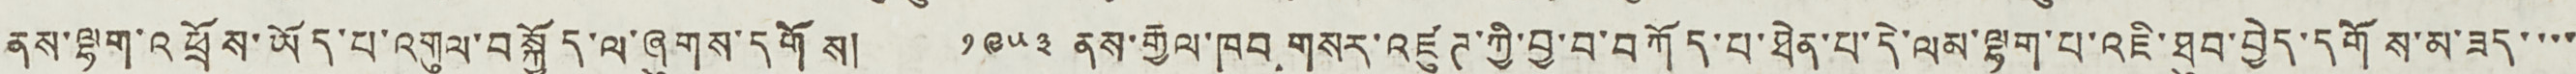ནས་ལྷག་འཕྲོས་ཡོད་པ་འགུལ་བསྐྱོད་ལ་ཞུགས་དགོས། ༡༩༥༣ ནས་རྒྱལ་ཁབ་གསར་འཛུཊ་ཀྱི་བྱ་བ་བཀོད་པ་ཐེན་པ་དེ་ལམ་ལྷག་པ་འཇི་ཐུབ་བྱེད་དགོས་མ་ཟད་་་་
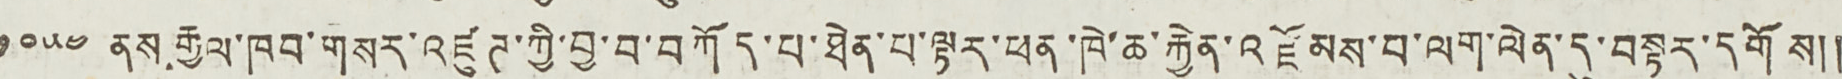༡༩༥༤ ནས རྒྱལ་ཁབ་གསར་འཛུཊ་ཀྱི་བྱ་བ་བཀོད་པ་ཐེན་པ་ལྟར་ཕན་ཁེ་ཆ་རྐྱེན་འཛོམས་བ་ལག་ལེན་དུ་བསྟར་དགོས༎
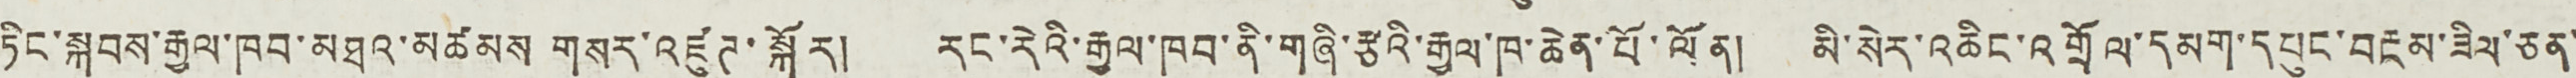ཏིང་སྐབས་རྒྱལ་ཁབ་མཐའ་མཚམས གསར་འཛུཊ་སྐོར། རང་རེའི་རྒྱལ་ཁབ་ནི་གཞི་རྩའི་རྒྱལ་ཁ་ཆེན་པོ་ལོན། མི་སེར་འཆིང་འགྲོལ་དམག་དཔུང་བརྔམ་ཟིལ་ཅན་
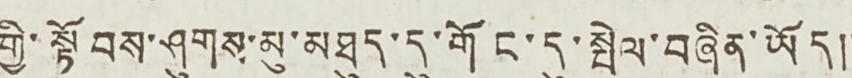གྱི་སྟོབས་ཤུགས་མུ་མཐུད་དུ་གོང་དུ་སྤེལ་བཞིན་ཡོད༎
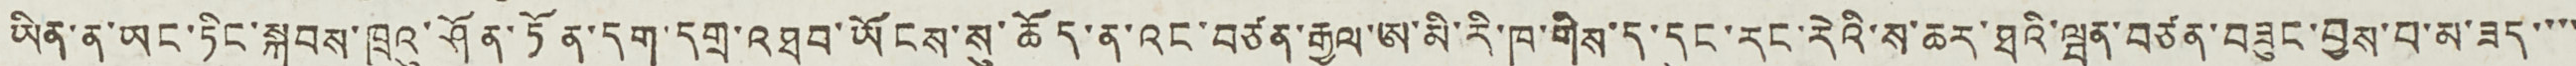ཡིན་ན་ཡང་ཏིང་སྐབས་ཁྲའུ་ཤོན་ཏོན་དག་དགྲ་འཐབ་ཡོངས་སུ་ཆོད་ན་འང་བཙན་རྒྱལ་ཨ་མི་རི་ཁ་གིས་ད་དུང་རང་རེའི་ས་ཆར་ཐའི་ཝན་བཙན་བཟུང་བྱས་བ་མ་ཟད་་་་
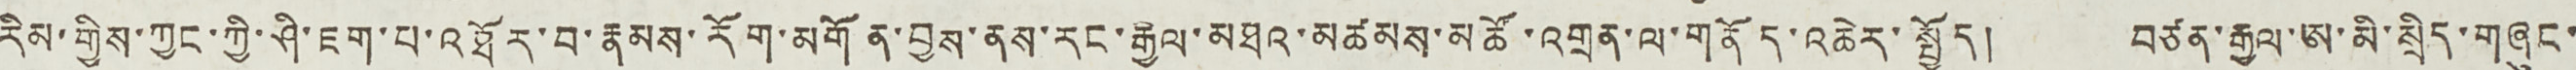རིམ་གྱིས་ཀྱང་ཀྱི་ཤི་ཇག་པ་འཐོར་བ་རྣམས་རོག་མགོན་བྱས་ནས་རང་རྒྱལ་མཐའ་མཚམས་མཚོ་འགྲན་ལ་གནོད་འཆེར་སྤྱོད། བཙན་རྒྱལ་ཨ་མི་སྲིད་གཞུང་
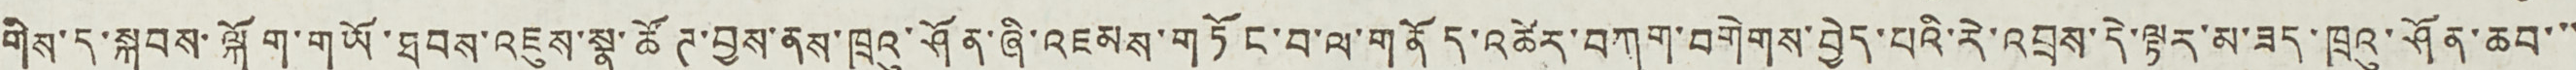གིས་ད་སྐབས་ལྐོག་གཡོ་ཐབས་འཇུས་སྣ་ཚོཊ་བྱས་ནས་ཁྲའུ་ཤོན་ཞི་འཇམས་གཏོང་བ་ལ་གནོད་འཚེར་བཀག་བགེགས་བྱེད་པའི་རེ་འབྲས་དེ་ལྟར་མ་ཟད་ཁྲའུ་ཤོན་ཆབ་་་
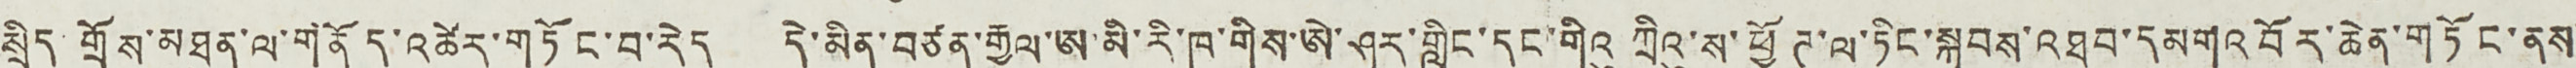སྲིད གྲོས་མཐུན་ལ་གནོད་འཚེར་གཏོང་བ་རེད དེ་མིན་བཙན་རྒྱལ་ཨ་མི་རི་ཁ་གིས་ཨེ་ཤར་གླིང་དང་གིའུ ཀྲིའུ་ས་ཕྱོཊ་ལ་ཏིང་སྐབས་འཐབ་དམགའ བོར་ཆེན་གཏོང་ནས་
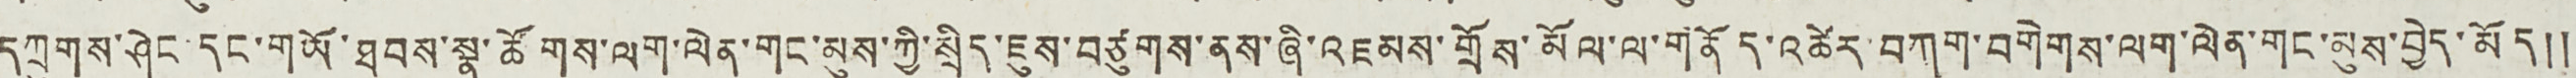དཀྲུགས་ཤེང་དང་གཡོ་ཐབས་སྣ་ཚོགས་ལག་ལེན་གང་མུས་ཀྱི་སྲིད་ཇུས་བཙུགས་ནས་ཞི་འཇམས་གྲོས་མོལ་ལ་གནོད་འཚེར་བཀག་བགེགས་ལག་ལེན་གང་མུས་བྱེད་མོད༎
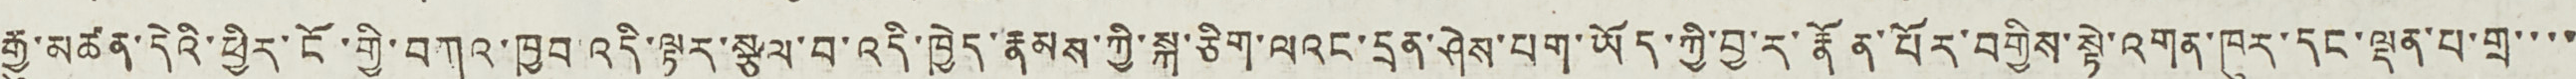རྒྱུ་མཚན་དེའི་ཕྱི་ངོ་གྱི་བཀའ་ཁྱབ་འདི་ལྟར་སྩལ་བ་འདི་ཁྱེད་རྣམས་ཀྱི་སྐ་ཅིག་ལའང་དྲན་ཤེས་པག་ཡོད་ཀྱི་བྱ་ར་རྣོན་པོར་བགྱིས་སྟེ་འགན་ཁུར་དང་ལྡན་པ་གྲ་་་་
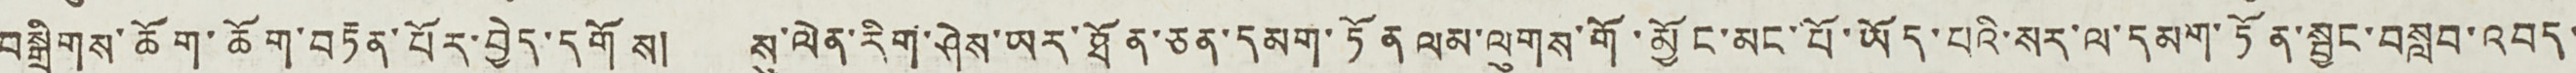བསྒྲིགས་ཆོག་ཆོག་བརྟན་པོར་བྱེད་དགོས། སུ་ལེན་རིག་ཤེས་ཡར་ཐོན་ཅན་དམག་ཏོན ལམ་ལུགས་གོ་མྱོང་མང་པོ་ཡོད་པའི་སར་ལ་དམག་ཏོན་སྦྱང་བསླབ་འབད་
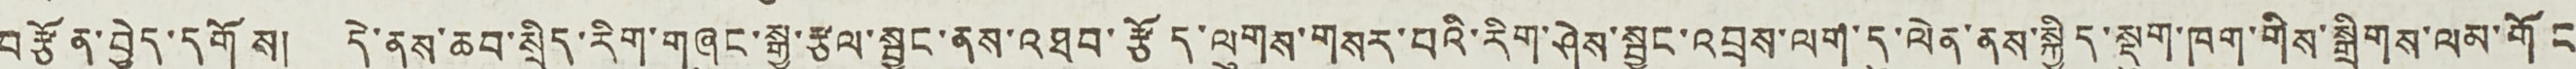བརྩོན་བྱེད་དགོས། དེ་ནས་ཆབ་སྲིད་རིག་གཞུང་སྒྱུ་རྩལ་སྦྱང་ནས་འཐབ་རྩོད་ལུགས་གསར་པའི་རིག་ཤེས་སྦྱང་འབྲས་ལག་དུ་ལེན་ནས་སྐྱིད་སྡུག་ཁག་གིས་སྒྲིགས་ལམ་གོང
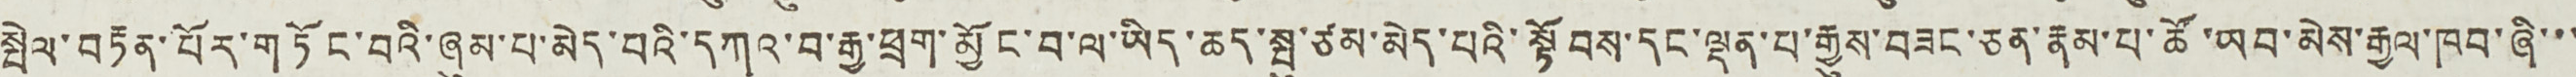སྤེལ་བརྟན་པོར་གཏོང་བའི་ཞུམ་པ་མེད་པའི་དཀའ་བ་རྒྱ་ཕྲག་མྱོང་བ་ལ་ཡིད་ཆད་སྤུ་ཙམ་མེད་པའི་སྟོབས་དང་ལྡན་པ་རྒྱུས་བཟང་ཅན་རྣམ་པ་ཚོ་ཡབ་མེས་རྒྱལ་ཁབ་ཞི་་་
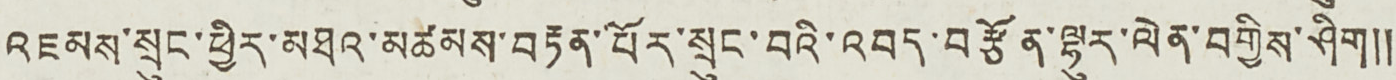འཇམས་སྲུང་ཕྱིར་མཐའ་མཚམས་བརྟན་པོར་སྲུང་བའི་འབད་བརྩོན་ལྷུར་ལེན་བགྱིས་ཤིག༎
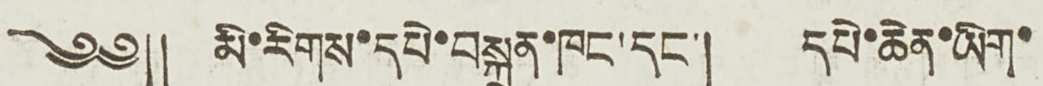༄༅༎ མི་རིགས་དཔེ་བསྐྲུན་ཁང་དང་། དཔེ་ཆེན་ཡིག་
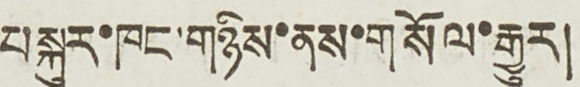བསྐུར་ཁང་གཉིས་ནས་གསོལ་རྒྱུར།
